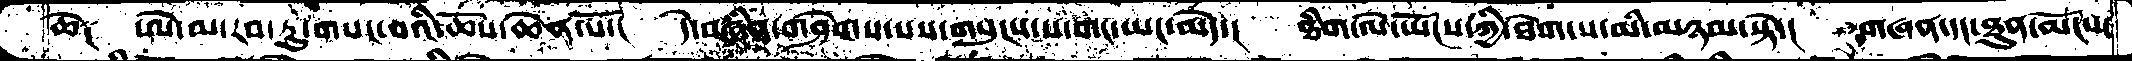ཆེ༑ ཨེ་མ་རབ་ཏུ་གསང་བའི་ཆོས་ཆེན་པོ་། དེ་བཞིན་གཤེགས་པས་གསུངས་པ་གང་ཡང་མེད་།  ཐིག་ལེ་ཡོངས་ཀྱི་ཐེག་པ་མི་མཉམ་སྟེ་།  གཞན་དད་ཐུན་མོངས་
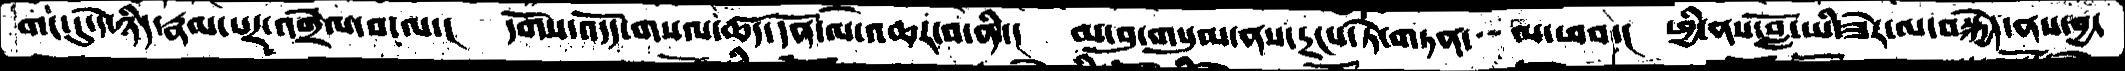གང་དུ་དེ་ཉིད་རྣམ་པར་འགྲོལ་བ་ལ་།  དགོས་འདོད་གསལ་ཚད་དོན་ལ་འཆར་བ་ནི་།  མ་བུ་གསུམ་ནས་དྲངས་ཏེ་གཏན་ལ་ཕབ་།  ཕྱི་ནས་བློ་ཡི་ཟེར་ལ་བསྐྱེད་ནས་བྱ་།
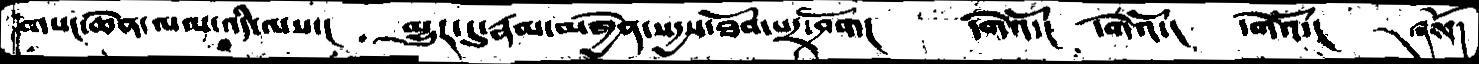གསང་ཆེན་ལམ་འདི་ལས་།  མྱུར་དུ་རྣམ་མཁྱེན་སདྱས་ཐོབ་པར་ཤོག།  དགེའོ་། དགེའོ་།  དགེའོ་།  ཞེསོ།
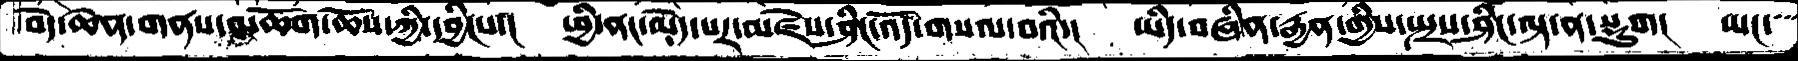བདེ་ཆེན་གནས་མཆོག་ཆོས་ཀྱི་དབྱིངས་།   ཕྱི་ནང་མེད་པར་མཛེས་ཤིང་འོད་གསལ་བའི་།  ཡིད་བཞིན་རྒྱན་གྱིས་སྤྲས་ཤིང་ལྟ་ན་སྡུག།  ཡང་
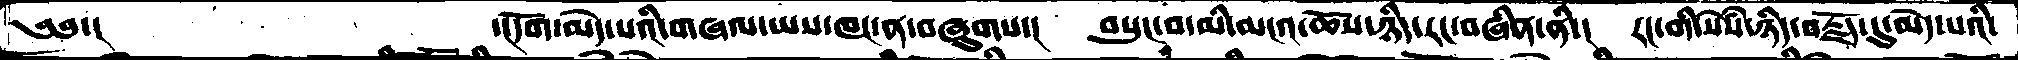༄༅་།          ་།དོག་མེད་པའི་གཞལ་ཡས་ཁང་ན་བཞུགས་།  བསུང་བ་མི་མངའ་ཆོས་ཉིད་རང་བཞིན་ནི་།  རང་གི་སེཾས་ཉིད་བརྗོད་དུ་མེད་པའི་
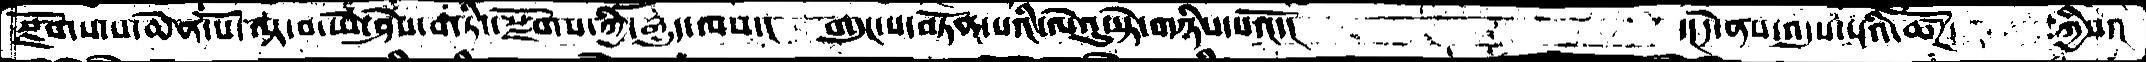སྫོགས་པ་ཆེན་པོ་ལྟ་བ་ཡེ་ཤེས་གཏིང་སྫོགས་ཀྱི་རྒྱུད་ལས་།  གདུང་པ་བཏོན་པའི་ལེའུ་སྟེ་གཉིས་པའོ་།      ་།དེ་ནས་འདུས་པའི་ཚོཌ་   ཀྱིས་།
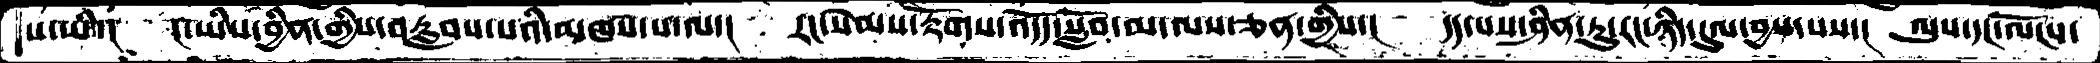པ་ཡི་།  ང་ཡིས་བྱིན་གྱིས་བརླབས་པའི་མཁས་པ་ལ་།   རང་སེམས་རྟོགས་འདོད་སློབ་མ་ལས་ཅན་གྱིས་།  དད་པས་ཤིན་ཏུ་རང་ཉིད་དུལ་བྱས་པས་།   ལུས་དང་ལོངས་
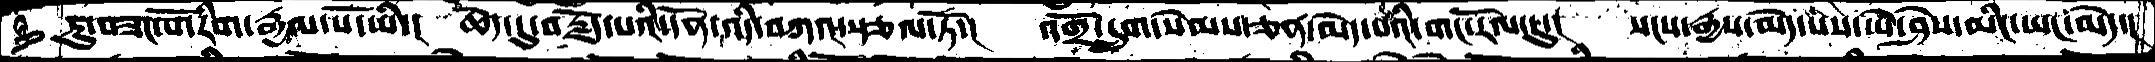ཏུ་བཟང་པོ་རིག་རྒྱལ་པོ་ཡི་།  ཆེད་དུ་བརྗོད་པའི་དོན་འདི་བཀའ་སྩལ་ཏོ་།  འགྲོ་དྲུག་སེམས་ཅན་མེད་པའི་གང་རོལ་དུ་།  སངས་རྒྱས་མེད་པས་ཡེ་ཤེས་མིང་ཡང་མེད་།
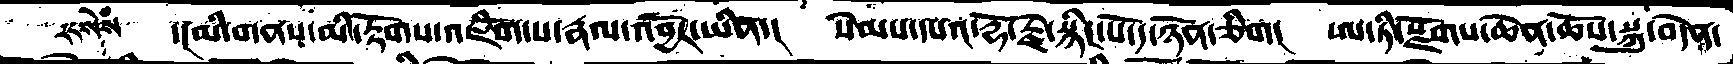རང་སེཾས་ ་།མི་གནས་མི་རྟོགས་འཇིག་པ་རྣལ་འབྱོར་ཡིན་།  སེམས་དཔལ་རྡོ་རྗེ་སྙིང་པོ་ད་ཉོན་ཅིག།  ཨ་ཏི་སྫོགས་ཆེན་ཆོས་སྐུ་བདེན་
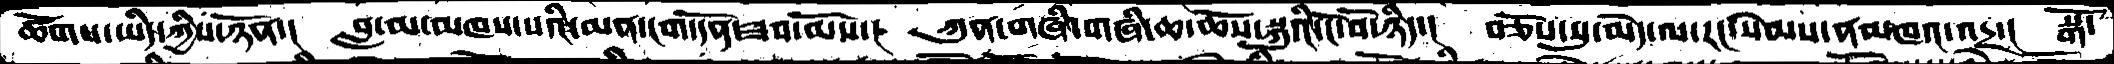ཚོགས་ཡིད་ཀྱིས་ཉོན་། བླ་མ་མཁས་པའི་མན་ངག་དོན་ཟབ་མོས་། ཀུན་གཞི་གཞི་ཆ་ཆོས་སྐུའི་ངོ་བོ་ཉིད། བཅོས་སུ་མེད་ལ་རང་སེམས་ནམཁའ་འདྲ་། སྒོ་
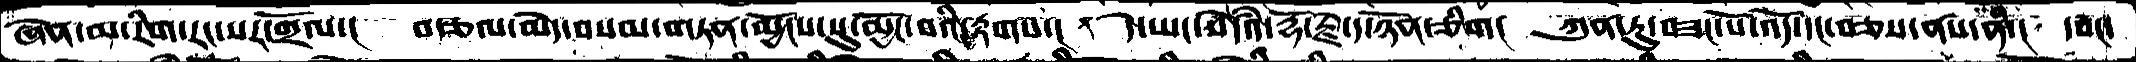ཞེན་མ་རིག་རང་སར་གྲོལ་། བརྩལ་མེད་བསམ་གཏན་མྱོངས་སུ་མྱོང་བའི་རྟགས།  དེ་ཡང་སེཾདའ་རྡོ་རྗེ་ད་ཉོན་ཅིག།  ཀུན་ཏུ་བཟང་པོ་འོད་དང་བཅས་ནས་ནི་།  དབང་
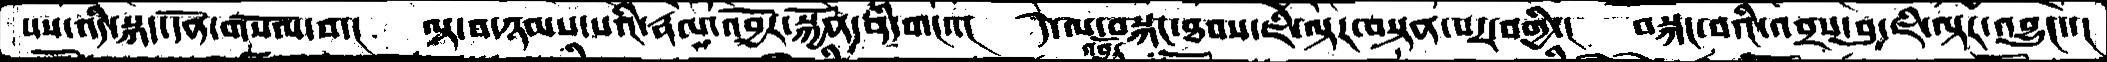པས་འདི་སྐད་དོན་གསོལ་བ་། ལྟ་བ་ཉམས་པའི་རྣལ་འབྱོར་སྐྱོན་ནི་གང་་། དེ་ལ་བསྐང་ཐབས་ཇི་ལྟར་བསྟན་པར་བགྱི་། བསྐང་བའི་འབྲས་བུ་ཇི་ལྟར་འབྱུང་་།
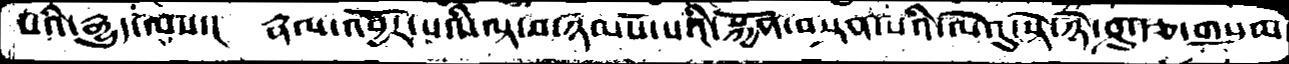པའི་རྒྱུད་ལས་།  རྣལ་འབྱོར་པའི་ལྟ་བ་ཉམས་པའི་སྐྱོན་བསྟན་པའི་ལེའུ་སྟེ་ཉེ་ཤུ་རྩ་གསུམ་
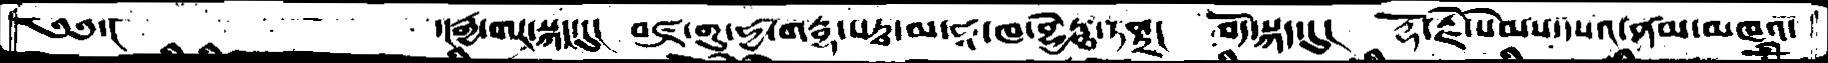༄༅་།        ་།རྒྱ་གར་སྐད་དུ།  བཛྲ་གུ་ཧྱ་གརྦྷ་སཏྭ་མ་ཧཱ་ཁ་བྷྱེ་ཏྠ་ཏནྟྲ།  བོད་སྐད་དུ། རྡོ་རྗེ་སེམས་དཔའ་ནམ་མཁའ་
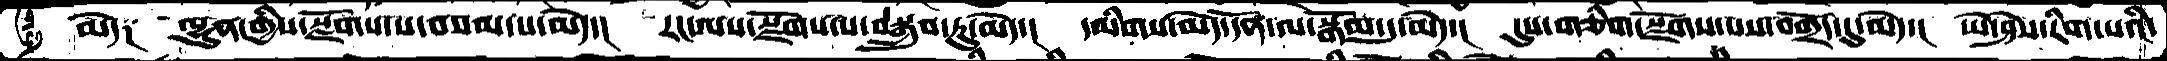མེད་།  ལྷུན་གྱིས་སྫོགས་པ་བསམ་པ་མེད་།  རང་ལས་སྫོགས་པ་བསྒྲུབ་ཏུ་མེད་། དམིགས་མེད་དོན་ལ་སྒོམ་དུ་མེད་། དུས་གཅིག་སྫོགས་པས་བགྲོད་དུ་མེད་། ཡེ་ཤེས་རིག་པའི་
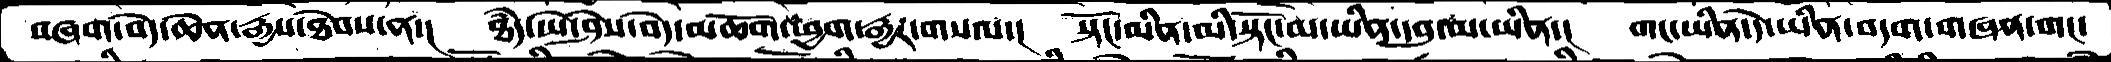བཞག་བདེ་ཆེན་རྒྱས་ཐེབས་ན་།  ཐཾད་ཡེ་ཤེས་བདེ་མཆོག་ཕྱག་རྒྱར་གསལ་།  སྟོང་མིན་མི་སྟོང་མ་ཡིན་དབུ་མ་ཡིན་།  གང་ཡིན་དེ་ཡིན་བདག་གཞན་གང་
